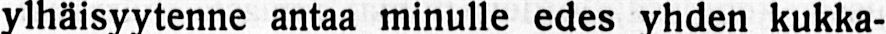ylhäisyytenne antaa minulle edes yhden kukka-
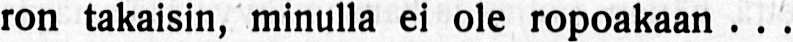ron takaisin, minulla ei ole ropoakaan . . .
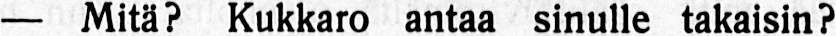— Mitä? Kukkaro antaa sinulle takaisin?
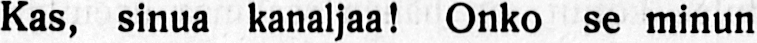Kas, sinua kanaljaa! Onko se minun syyni,
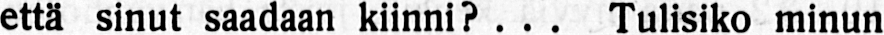että sinut saadaan kiinni? . . . Tulisiko minun
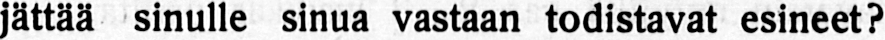jättää sinulle sinua vastaan todistavat esineet?
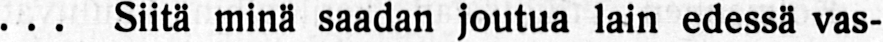. . . Siitä minä saadan joutua lain edessä vas-
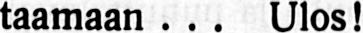taamaan . . . Ulos!
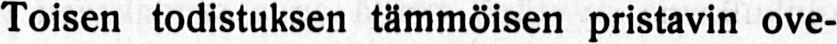Toisen todistuksen tämmöisen pristavin ove-
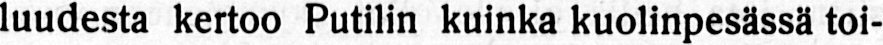luudesta kertoo Putilin kuinka kuolinpesässä toi-
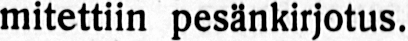mitettiin pesänkirjotus.
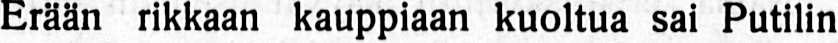Erään rikkaan kauppiaan kuoltua sai Putilin
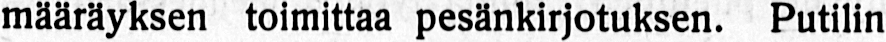määräyksen toimittaa pesänkirjotuksen. Putilin
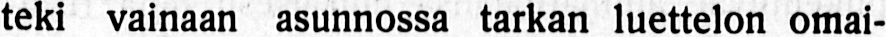teki vainaan asunnossa tarkan luettelon omai-
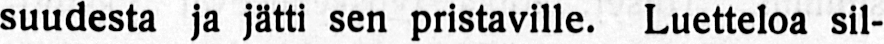suudesta ja jätti sen pristaville. Luetteloa sil-
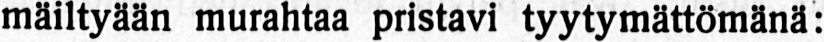mäiltyään murahtaa pristavi tyytymättömänä:
